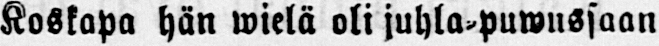Koskapa hän wielä oli juhla-puwussaan
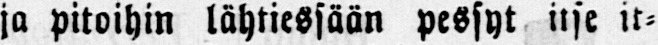ja pitoihin lähtiessään pessyt itse it-
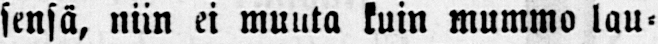sensä, niin ei muuta kuin mummo lau-
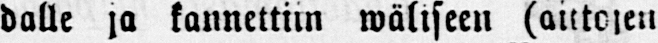dalle ja kannettim wäliseen (aittojen
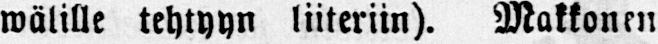wälille tehtyyn liiteriin). Makkonen
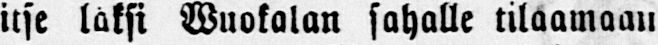itse läksi Wuokalan sahalle tilaamaan
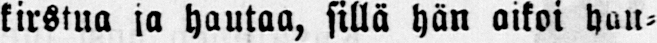kirstua ja hautaa, sillä hän oikoi hau-
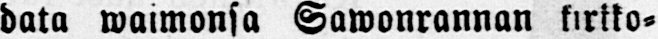data waimonsa Sawonrannan kirkko-
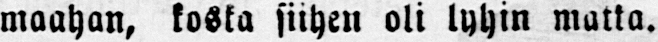maahan, koska siihen oli lyhin matka.
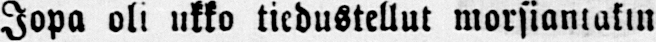Jopa oli ukko tiedustellut morsiantakin
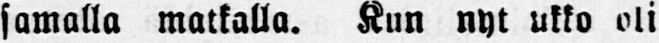samalla matkalla. Kun nyt ukko oli
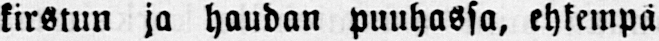kirstun ja haudan puuhassa, ehkempä
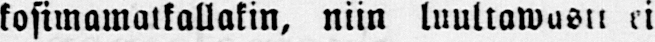kosimamatkallakin, niin luultawasii ei
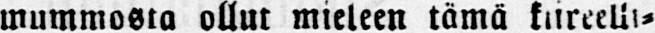mummosta ollut mieleen tämä kiireelli-
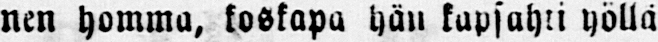nen homma, koskapa hän kapsahti yöllä
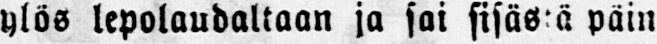ylös lepolaudaltaan ja sai sisästä päin
